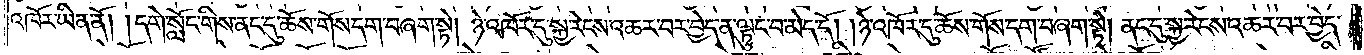འཁོར་ཡིན་ནོ། །དགེ་སློང་གིས་ནང་དུ་ཆོས་གོས་དག་བཞག་སྟེ། ཉེ་འཁོར་དུ་སྐྱ་རེངས་འཆར་བར་བྱེད་ན་ལྟུང་བ་མེད་དོ། །ཉེ་འཁོར་དུ་ཆོས་གོས་དག་བཞག་སྟེ། ནང་དུ་སྐྱ་རེངས་འཆར་བར་བྱེད་
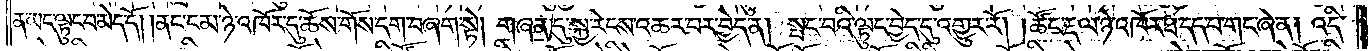ན་ཡང་ལྟུང་བ་མེད་དོ། །ནང་ངམ་ཉེ་འཁོར་དུ་ཆོས་གོས་དག་བཞག་སྟེ། གཞན་དུ་སྐྱ་རེངས་འཆར་བར་བྱེད་ན། སྤང་བའི་ལྟུང་བྱེད་དུ་འགྱུར་རོ། །ཚོང་རྡལ་ཉེ་འཁོར་ཐ་དད་པ་གང་ཞེ་ན། འདི་
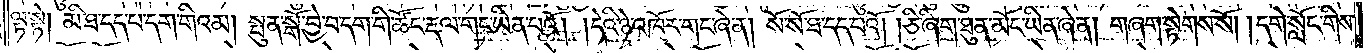ལྟ་སྟེ། མི་ཐ་དད་པ་དག་གིའམ། སྤུན་སྒོ་བྱེ་བ་དག་གི་ཚོང་རྡལ་གང་ཡིན་པའོ། །དེའི་ཉེ་འཁོར་གང་ཞེ་ན། སོ་སོ་ཐ་དད་པའོ། །ཅི་ཞིག་ཐུན་མོང་ཡིན་ཞེ་ན། གཞག་སྟེགས་སོ། །དགེ་སློང་གིས་
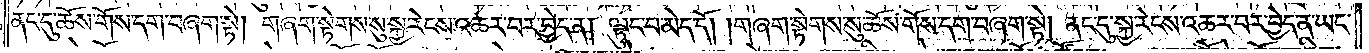ནང་དུ་ཆོས་གོས་དག་བཞག་སྟེ། གཞག་སྟེགས་སུ་སྐྱ་རེངས་འཆར་བར་བྱེད་ན། ལྟུང་བ་མེད་དོ། །གཞག་སྟེགས་སུ་ཆོས་གོས་དག་བཞག་སྟེ། ནང་དུ་སྐྱ་རེངས་འཆར་བར་བྱེད་ན་ཡང་
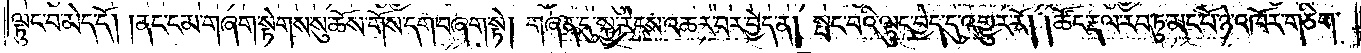ལྟུང་བ་མེད་དོ། །ནང་ངམ་གཞག་སྟེགས་སུ་ཆོས་གོས་དག་བཞག་སྟེ། གཞན་དུ་སྐྱ་རེངས་འཆར་བར་བྱེད་ན། སྤང་བའི་ལྟུང་བྱེད་དུ་འགྱུར་རོ། །ཚོང་རྡལ་རབ་ཏུ་མང་པོ་ཉེ་འཁོར་གཅིག་
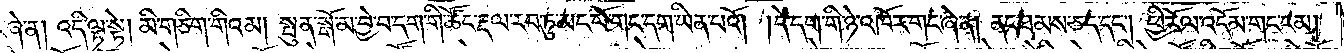ཞེ་ན། འདི་ལྟ་སྟེ། མི་གཅིག་གིའམ། སྤུན་སྒོ་མ་བྱེ་བ་དག་གི་ཚོང་རྡལ་རབ་ཏུ་མང་པོ་གང་དག་ཡིན་པའོ། །དེ་དག་གི་ཉེ་འཁོར་གང་ཞེ་ན། ནང་ཐམས་ཅད་དང༌། ཕྱི་རོལ་འདོམ་གང་ངམ།
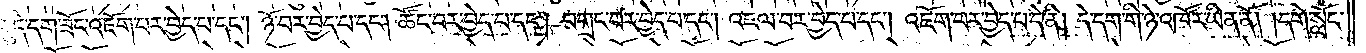དུ་དེ་དག་ཟོང་འཇོག་པར་བྱེད་པ་དང༌། ཉོ་བར་བྱེད་པ་དང༌། ཚོང་བར་བྱེད་པ་དང༌། བགྲང་བར་བྱེད་པ་དང༌། འཇལ་བར་བྱེད་པ་དང༌། འཇོག་པར་བྱེད་པ་དེ་ནི། དེ་དག་གི་ཉེ་འཁོར་ཡིན་ནོ། །དགེ་སློང་
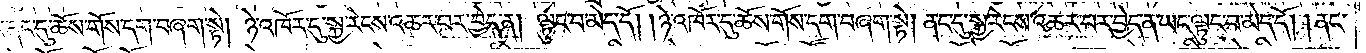ནང་དུ་ཆོས་གོས་དག་བཞག་སྟེ། ཉེ་འཁོར་དུ་སྐྱ་རེངས་འཆར་བར་བྱེད་ན། ལྟུང་བ་མེད་དོ། །ཉེ་འཁོར་དུ་ཆོས་གོས་དག་བཞག་སྟེ། ནང་དུ་སྐྱ་རེངས་འཆར་བར་བྱེད་ན་ཡང་ལྟུང་བ་མེད་དོ། །ནང་
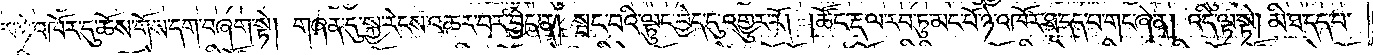ངམ་ཉེ་འཁོར་དུ་ཆོས་གོས་དག་བཞག་སྟེ། གཞན་དུ་སྐྱ་རེངས་འཆར་བར་བྱེད་ན། སྤང་བའི་ལྟུང་བྱེད་དུ་འགྱུར་རོ། །ཚོང་རྡལ་རབ་ཏུ་མང་པོ་ཉེ་འཁོར་ཐ་དད་པ་གང་ཞེ་ན། འདི་ལྟ་སྟེ། མི་ཐ་དད་པ་
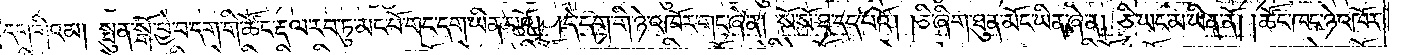དག་གིའམ། སྤུན་སྒོ་བྱེ་བ་དག་གི་ཚོང་རྡལ་རབ་ཏུ་མང་པོ་གང་དག་ཡིན་པའོ། །དེ་དག་གི་ཉེ་འཁོར་གང་ཞེ་ན། སོ་སོ་ཐ་དད་པའོ། །ཅི་ཞིག་ཐུན་མོང་ཡིན་ཞེ་ན། ཅི་ཡང་མ་ཡིན་ནོ། །ཚོང་ཁང་ཉེ་འཁོར་
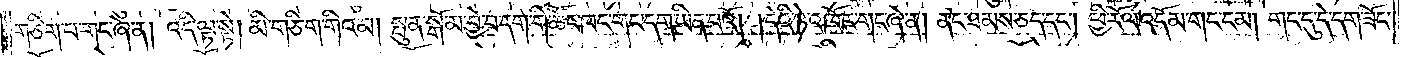གཅིག་པ་གང་ཞེ་ན། འདི་ལྟ་སྟེ། མི་གཅིག་གིའམ། སྤུན་སྒོ་མ་བྱེ་བ་དག་གི་ཚོང་ཁང་གང་དག་ཡིན་པའོ། །དེའི་ཉེ་འཁོར་གང་ཞེ་ན། ནང་ཐམས་ཅད་དང༌། ཕྱི་རོལ་འདོམ་གང་ངམ། གང་དུ་དེ་དག་ཟོང་
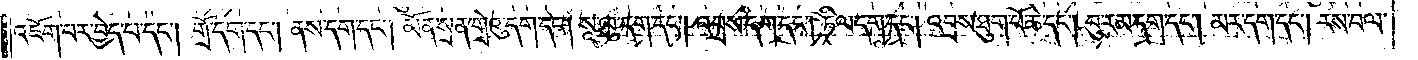འཇོག་པར་བྱེད་པ་དང༌། གྲོ་དག་དང༌། ནས་དག་དང༌། མོན་སྲན་གྲེའུ་དག་དང༌། སཱ་ལུ་དག་དང༌། འབྲས་དག་དང༌། ཏིལ་དག་དང༌། འབྲས་ཐུག་པོ་ཆེ་དང༌། བུ་རམ་དག་དང༌། བུ་རམ་དག་དང༌། མར་དག་དང༌། རས་བལ་
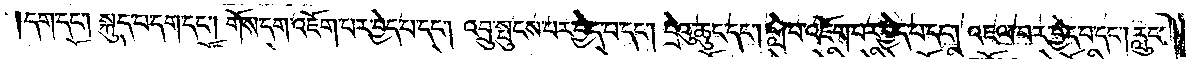དག་དང༌། སྐུད་པ་དག་དང༌། གོས་དག་འཇོག་པར་བྱེད་པ་དང༌། འབྲུ་སྤུངས་པར་བྱེད་པ་དང༌། བྲེའུ་ཆུང་དང༌། གླེ་བ་འཇོག་བར་བྱེད་པ་དང༌། འཇལ་བར་བྱེད་པ་དང༌། རླུང་
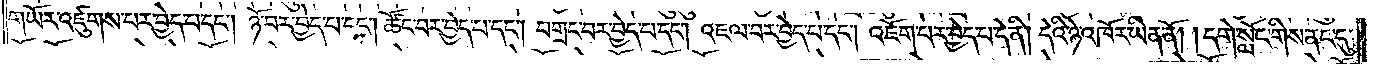གཡོར་འཛུགས་པར་བྱེད་པ་དང༌། ཉོ་བར་བྱེད་པ་དང༌། ཚོང་བར་བྱེད་པ་དང༌། བགྲང་བར་བྱེད་པ་དང༌། འཇལ་བར་བྱེད་པ་དང༌། འཇོག་པར་བྱེད་པ་དེ་ནི། དེའི་ཉེ་འཁོར་ཡིན་ནོ། །དགེ་སློང་གིས་ནང་དུ་
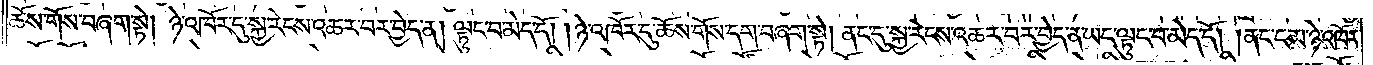ཆོས་གོས་བཞག་སྟེ། ཉེ་འཁོར་དུ་སྐྱ་རེངས་འཆར་བར་བྱེད་ན། ལྟུང་བ་མེད་དོ། །ཉེ་འཁོར་དུ་ཆོས་གོས་དག་བཞག་སྟེ། ནང་དུ་སྐྱ་རེངས་འཆར་བར་བྱེད་ན་ཡང་ལྟུང་བ་མེད་དོ། །ནང་ངམ་ཉེ་འཁོར་
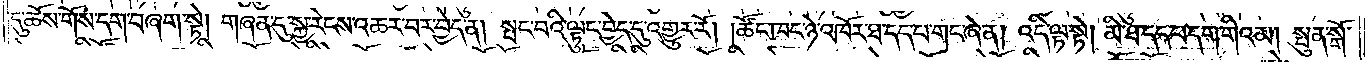དུ་ཆོས་གོས་དག་བཞག་སྟེ། གཞན་དུ་སྐྱ་རེངས་འཆར་བར་བྱེད་ན། སྤང་བའི་ལྟུང་བྱེད་དུ་འགྱུར་རོ། །ཚོང་ཁང་ཉེ་འཁོར་ཐ་དད་པ་གང་ཞེ་ན། འདི་ལྟ་སྟེ། མི་ཐ་དད་པ་དག་གིའམ། སྤུན་སྒོ་
